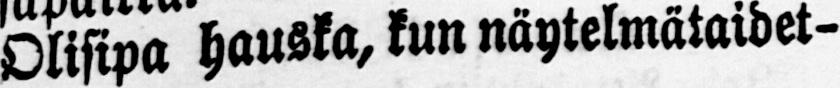Olisipa hauska, kun näytelmätaidet-
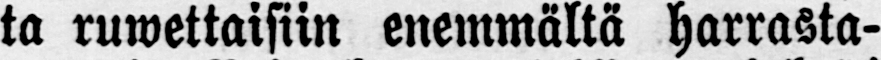ta ruwettaisiin enemmältä harrasta-
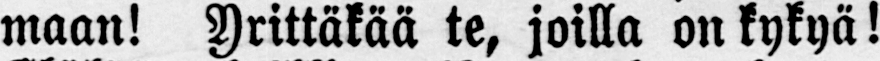maan! Yrittäkää te, joilla on kykyä!
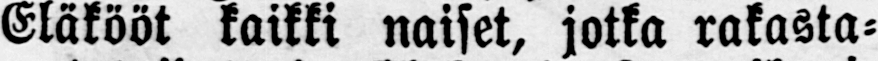Eläkööt kaikki naiset, jotka rakasta-
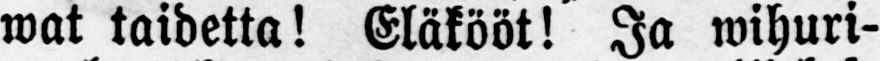wat taidetta! Eläkööt! Ja wihuri-
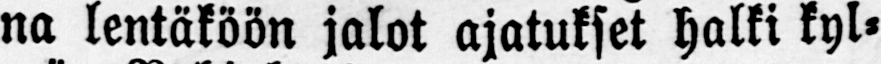na lentäköön jalot ajatukset halki kyl-
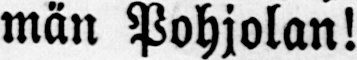män Pohjolan!
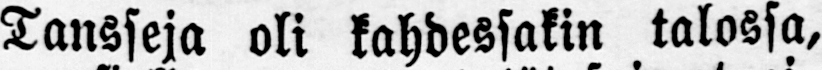Tansseja oli kahdessakin talossa,
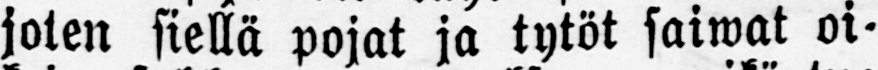joten siellä pojat ja tytöt saiwat oi-
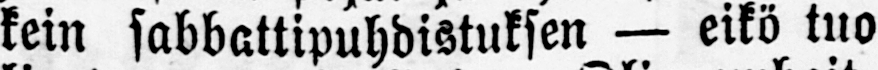kein sabbattipuhdistuksen — eikö tuo
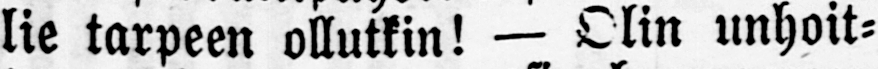lie tarpeen ollutkin! — Olin unhoit-
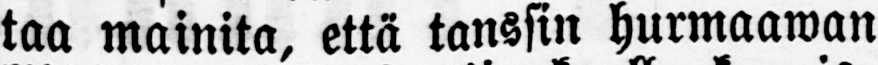taa mainita, että tanssin hurmaawan
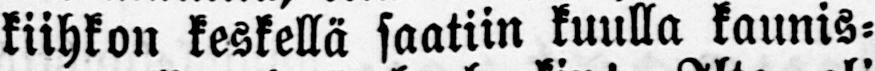kiihkon keskellä saatiin kuulla kaunis-
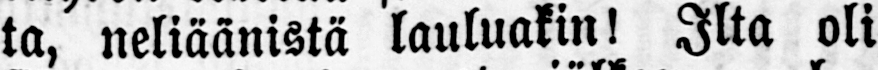ta, neliäänistä lauluakin! Ilta oli
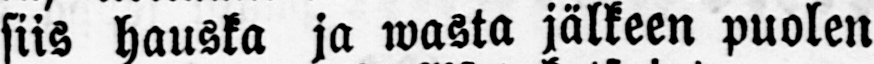siis hauska ja wasta jälkeen puolen
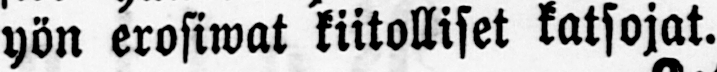yön erosiwat kiitolliset katsojat.
